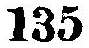135
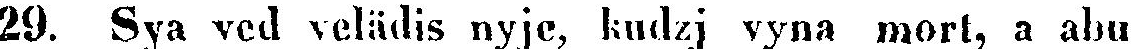29. Sya ved velädis nyje, kudzj vyna mort, a abu
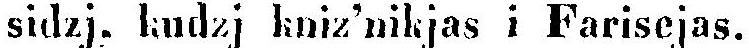sidzj. kudzj kniz'nikjas i Farisejas.
